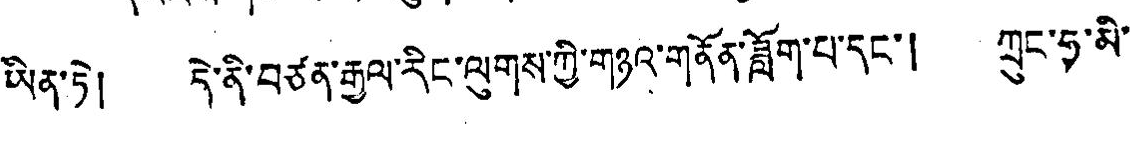ཡིན་ཏེ། དེ་ནི་བཙན་རྒྱལ་རིང་ལུགས་ཀྱི་གཉའ་གནོན་ཟློག་པ་དང་། ཀྲུང་ཧྭ་མི་
